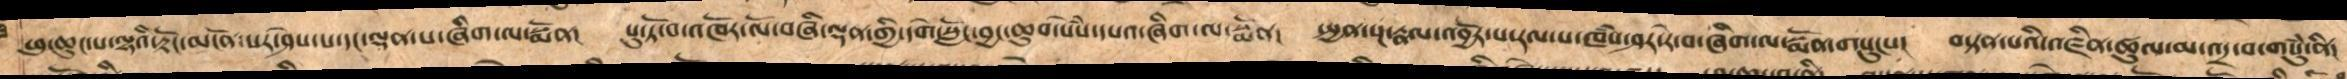ཕུ་ཆུང་པ་ལྷའི་རྟོང་མངོན་པར་ཤེས་པ་དང་ལྡན་པ་ཞིག་ལ་སྨོན།   པུ་ཏོ་བ་འཁོར་ལོ་བཞི་ལྡན་གྱི་དགེ་སློང་བྱང་ཆུབ་སེཾས་དཔའ་ཞིག་ལ་སྨོན།  སྤྱན་སྔ་རྣལ་འབྱོར་པ་རལ་པ་ཁཾས་ཤར་རེ་བ་ཞིག་ལ་སྨོན་གསུངས།   བསྟན་པའི་འཛིན་ཚུལ་མ་འདྲ་བ་གསུཾ་ནི།
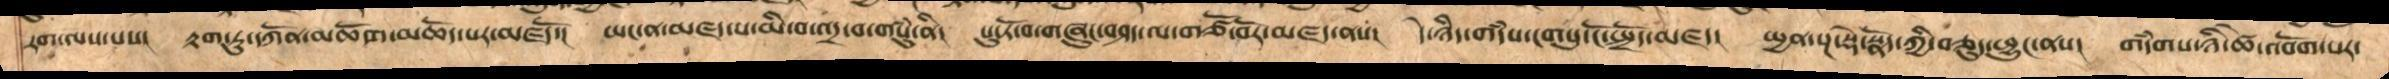རག་ལས་པས།  རྟག་ཏུ་དཀོན་མཆོག་མཆོད་པར་མཛདོ་།    ཡང་ན་མཛད་པ་མི་བ་འདྲ་བ་གསུཾ་ནི།   པུ་ཏོ་བ་གཞུང་བཤད་ལ་གཙོ་བོར་མཛད་ནས།   དེ་ཉིད་གདཾས་ངག་དུ་ངོ་སྤྲོད་མཛད།     སྤྱན་སྔ་སྡེ་སྣོད་ཀྱི་བཅུད་ཕྱུང་ནས།  གདཾགས་ཉི་ཚེ་འབོག་པར་
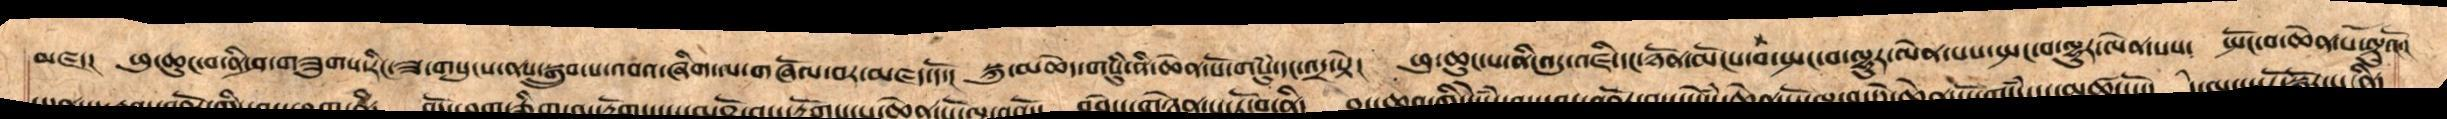མཛད། ཕུ་ཆུང་བ་ནི་ཤ་གཟུག་རིང་ཟ་གསུངས་ནས་སྒྲུབ་པ་འབའ་ཞིག་ལ་གཞོལ་བར་མཛད་དོ། །སྐུ་མཆེད་གསུཾ་ནི་ཆེན་པོ་གསུཾ་དང་ཡང་འདྲ་སྟེ། ཕུ་ཆུང་བ་ནི་འདུ་འཛི་དང་ཉོན་མོངས་བ་སྤང་བ་ལྷུར་ལེན་པས་སྤང་བ་ལྷུར་ལེན་པས་  སྤོང་བ་ཆེན་པོ་ལྟུའོ། །
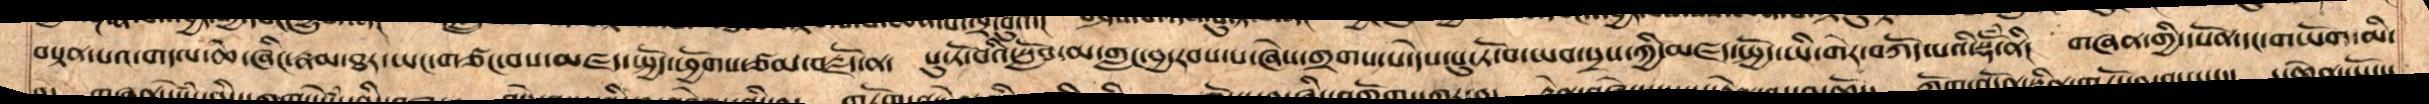བསྟན་པའ་གདལ་ཆེ་ཞིང་རྣམ་ཐར་ཡང་གཙང་བས་མཛད་སྤྱོད་ཕྱོགས་ཙམ་བརྗོད་ན།  པོ་ཏོ་བའི་སློབ་མ་གླང་བྱ་རབས་པཞེས་གྲགས་པ་དེས་པུ་ཏོ་བ་ཡབ་སྲས་ཀྱི་མཛད་སྤྱོད་ཡི་གེར་བཀོད་པའི་སྡོཾ་ནི།  གཞན་གྱི་དཔོན་དང་གཡོག་མི་
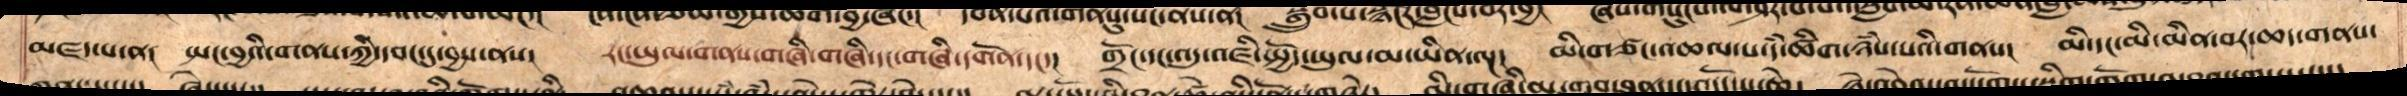མཛད་པ་ན། སྤང་བྱའི་གནས་ཀྱི་དབང་དུ་བྱས་ནས། རང་ཡུལ་གནས་གཞི་གཞི་དང་གཞི་དགོན་དང་། གྲོང་དང་འདུ་འཛི་སྤྱོད་ཡུལ་མ་ཡིན་ལྔ། མི་གཙང་འཆལ་པ་དཾ་ཚིག་ཉཾས་པའི་གནས། མི་དང་མི་མིན་བར་ཆད་གནས་
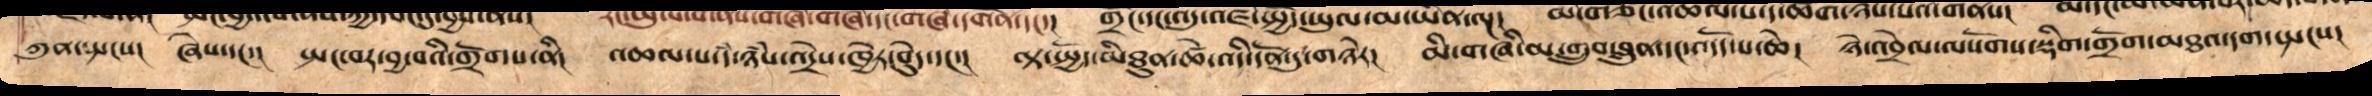ཀུན་སྤངས། ཞེས་དང་། སྤང་བར་བྱ་བའི་གྲོགས་ནི། འཆལ་པ་དཾ་ཉཾས་འདྲེས་ཁྱེར་བུདེ་དང་། ལྟ་སྤྱོད་མིཐུན་ཚེ་འདི་དོན་དུ་གཉེར། མི་གཞི་མ་གྲུབ་བླུན་དང་འདོད་པ་ཆེ། ཉེ་འབྲེལ་ལ་སོགས་སྡིག་གྲོག་མཐའ་དག་སྤངས།
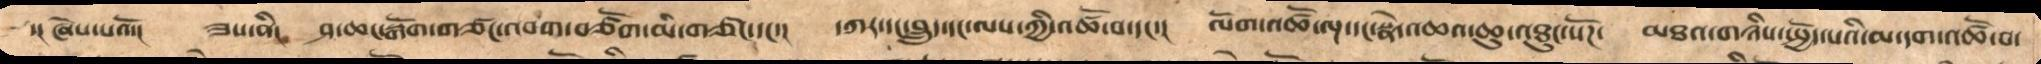་། ཞེས་པའོ།  ཟས་ནི།  ཤ་ཆང་སྒོག་གཙང་འབག་བཙོག་མི་གཙང་དང་།  དཀར་དང་བླུད་དང་ལས་ཀྱི་འཚོ་བ་དང་།  ལོག་འཚོ་ལྔ་དང་སྣེ་འཆའ་ཆུ་འཐུང་སོཌ།  མཐའ་གཉིས་སྤྱོད་པའི་མ་དག་འཚོ་བ་
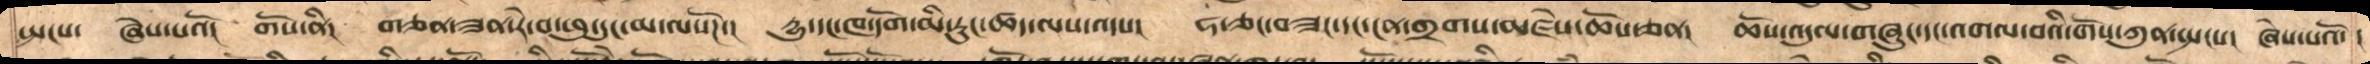སྤངས་  ཞེས་པའོ།  གོས་ནི།  གཅན་ཟན་རེ་བ་ཕུ་དུང་མ་ལསོཌ་།  དྱུ་དང་ཁ་དོག་མི་རུང་ཚང་ལས་འདས།།  ཧ་ཅང་བཟང་དང་ངན་གྲགས་མཛེས་ཆོས་ཅན།།  ཆོས་འདུལ་གཞུང་དང་འགལ་བའི་གོས་ཀུན་སྤངས།  ཞེས་པའོ་ །
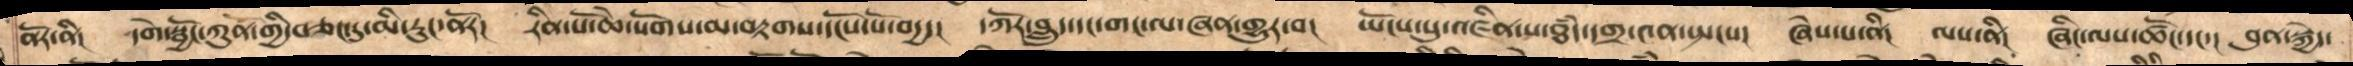ནོར་ནི།   དགེ་སྦྱོང་ཀུན་གྱི་བཅང་དུ་མི་རུང་ནོར།  རིན་པོ་ཆེ་སོགས་མ་བརྟགས་དངོས་པོ་བདྱ་།  དཀོར་བླུད་དང་གང་ལ་ཞན་གྱུར་བ།  ཡོངས་སུ་འཛིན་པ་ཐཾད་དགྲ་༤ན་སྤངས།  ཞེས་པ་ནི།  ལས་ནི།  ཞིང་ལས་ཚོང་དང་།  བུན་སྐྱེད་
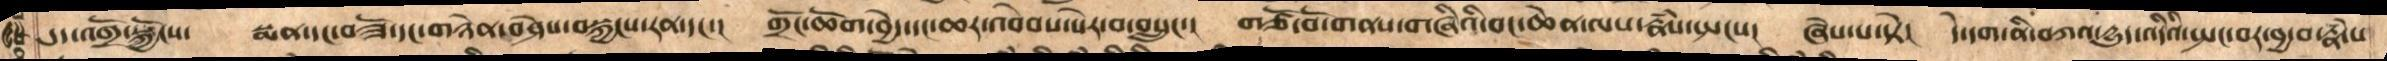དུད་འགྲོ་སྐྱོངས་། སྨན་དང་བཟོ་དང་གཉེན་བཤེས་བསྐྱངས་རན་དང་། གྲོང་ཆོག་བྱེད་དང་ཆར་འབེབས་སེར་བ་བསྲུང་། གཙོ་བོ་གནས་གཞིའི་བང་ཆེན་ལས་རྣཾས་སྤངས་། ཞེས་པ་སྟེ། དེ་དག་ནི་བཀའ་རྒྱུད་འདིའིསྤང་བར་བྱ་བ་རྣཾ་པ་
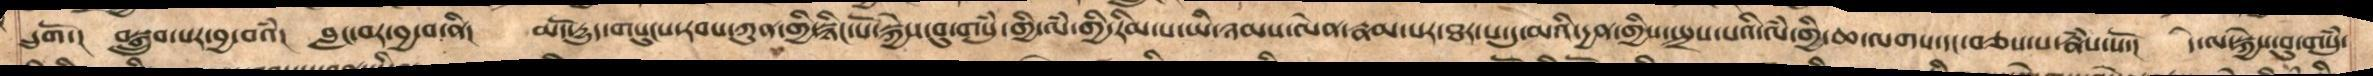དྲུགོ་།   བསྒྲུབ་པར་བྱ་བའཾ།   བླང་བར་བྱ་བ་ནི།   མདོ་རྒྱུད་གསུངས་རབས་ཀུན་གྱི་སྙིང་པོ་སྐྱེས་བུ་གསུཾ་གྱི་ལཾ་གྱི་རིམ་པ་ཡི་ཉམས་ལེན་རྣམ་པར་ཐར་པ་དུ་མའི་དྱན་གྱིས་སྤྲས་པའི་ལཾ་གྱི་ཆ་ལགས་དང་བཅས་པ་རྣཾས་སོ་།  དེ་ལ་སྐྱེས་བུ་གསུཾ་
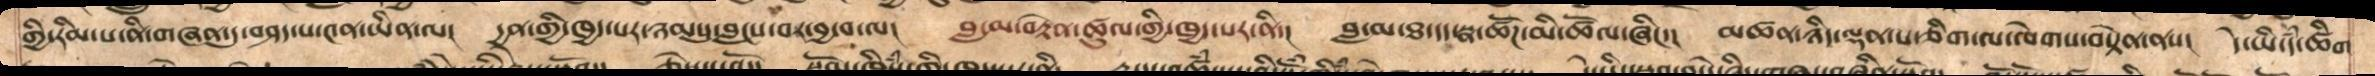གྱི་རིམ་པ་ནི་གཞན་དུ་བཤད་པ་༤ན་ཡིན་ལ།  དྱན་གྱི་ཁྱད་པར་ཉམསུ་བླངས་བར་བྱ་བ་ལ།  བླ་མ་བརྟེན་ཚུལ་གྱི་ཁྱད་པར་ནི། བླ་མ་ཐ་དད་སྣ་ཚོཌ་མི་ཚོལ་ཞིང་།  མཚན་ཉིད་ལྡན་པ་ཅིག་ལ་ལེགས་བསྟེན་ནས། དེ་ཡི་དཾ་ཚིག
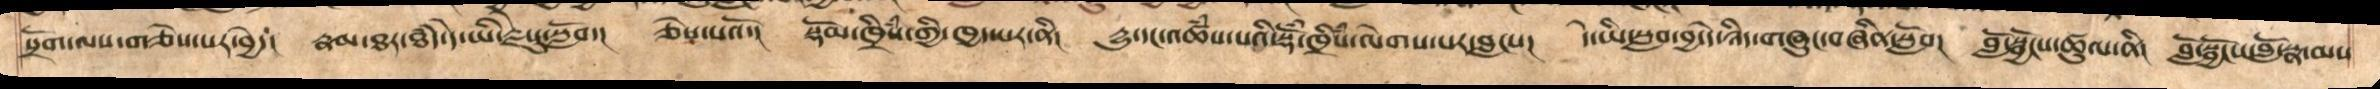སྲོག་ལས་གཅེས་པར་བྱེད།  རྣམ་ཐར་ཐཾད་དེ་ཡི་རྗེསུ་སློབ།  ཅེས་པའོ་།  སྡོམ་ཁྲིཾས་གྱི་ཁྱད་པར་ནི། དྱུ་དང་འཚཾས་པའི་སྡོཾ་ཁྲིཾས་ལེགས་པར་བླངས།  དེ་ཡི་སླབ་བྱ་དེ་ཉིད་གཞུང་བཞིན་སློབ།  བློ་སྦྱོངས་ཚུལ་ནི།  བློ་སྦྱོངས་བློ་སྣ་མས
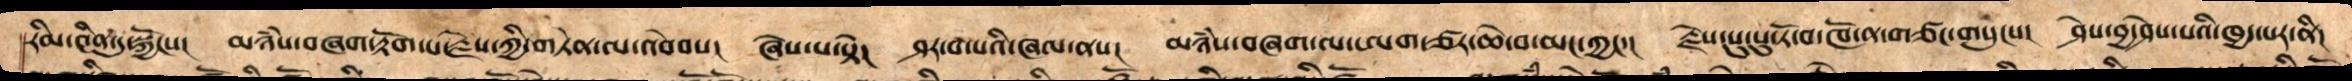རིམ་༤ིན་དུ་སྐྱོངས། མཉཾས་བཞག་རྟོག་པ་་རྗེས་ཀྱི་གཏན་ལ་འབེབས། ཞེས་པ་སྟེ། ཤར་བ་པའི་ཞལ་ནས།  མཉཾས་བཞག་ལ་ཨག་ཙར་ཆེ་བ་མང་ཀྱང་། རྗེས་སུ་སུ་ཏོ་བ་ཁོ་ན་གཙང་གསུངས།  ཤེས་བྱ་ཤེས་པའི་ཁྱད་པར་ནི།
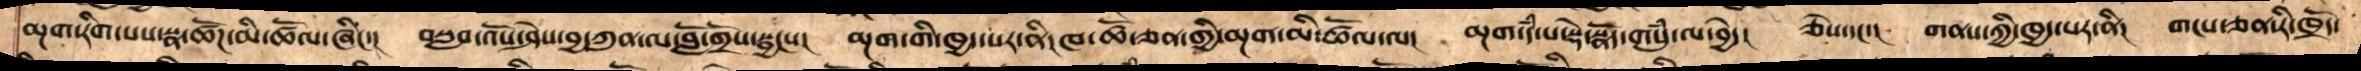མྔག་རིག་པས་སྣ་ཚོཌ་མི་ཆོལ་ཞིང་། བསླབ་འོས་ཤེས་བྱ་ཀུན་ལ་བློ་གྲོས་སྦྱངས་།  མྔག་གི་ཁྱད་པར་ནི་ཁ་ཚོ་ཅན་གྱི་མྔག་མི་ཚོལ་ལ།  མྔག་དཾ་པ་སྡེ་སྣོད་གསུཾ་ལ་བྱེད།  ཅེས་དང་།  གནས་ཀྱི་ཁྱད་པར་ནི།  གངས་ཅན་རི་ཁྲོད་
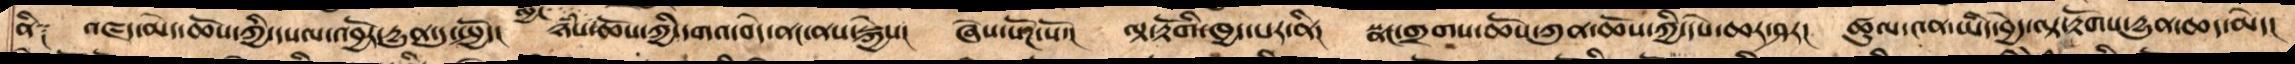ནི༑  འཛད་མེད་ཆོས་ཀྱི་དཔལ་འབྱོར་རྒྱུན་དུ་སྤྱོད།  ཉཾས་མྱོང་ཆོས་ཀྱི་དགའ་བདེ་ནང་ནས་སྐྱེས།   ཞེས་སོཌ་སོ་།  ལྟ་རྟོགི་ཁྱད་པར་ནི།  སྣང་གྲགས་ཆོས་ཀུན་ཆོས་ཀྱི་དཔེ་ཆར་ཤར།  ཚུལ་༤ན་ཡིད་བྱེད་ལྟ་རྟོགས་དྱུན་ཆད་མེད་།
